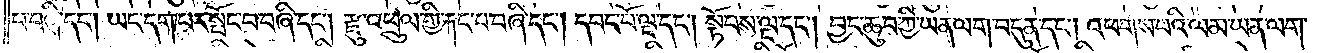པ་བཞི་དང༌། ཡང་དག་པར་སྤོང་བ་བཞི་དང༌། རྫུ་འཕྲུལ་གྱི་རྐང་པ་བཞི་དང༌། དབང་པོ་ལྔ་དང༌། སྟོབས་ལྔ་དང༌། བྱང་ཆུབ་ཀྱི་ཡན་ལག་བདུན་དང༌། འཕགས་པའི་ལམ་ཡན་ལག་
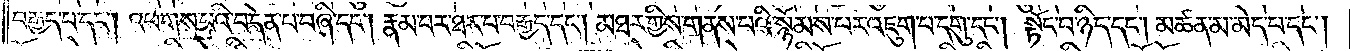བརྒྱད་པ་དང༌། འཕགས་པའི་བདེན་པ་བཞི་དང༌། རྣམ་པར་ཐར་པ་བརྒྱད་དང༌། མཐར་གྱིས་གནས་པའི་སྙོམས་པར་འཇུག་པ་དགུ་དང༌། སྟོང་པ་ཉིད་དང༌། མཚན་མ་མེད་པ་དང༌།
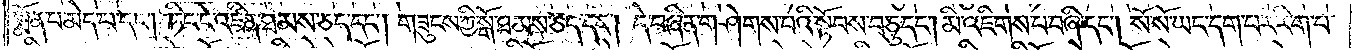སྨོན་པ་མེད་པ་དང༌། ཏིང་ངེ་འཛིན་ཐམས་ཅད་དང༌། གཟུངས་ཀྱི་སྒོ་ཐམས་ཅད་དང༌། དེ་བཞིན་གཤེགས་པའི་སྟོབས་བཅུ་དང༌། མི་འཇིགས་པ་བཞི་དང༌། སོ་སོ་ཡང་དག་པར་རིག་པ་
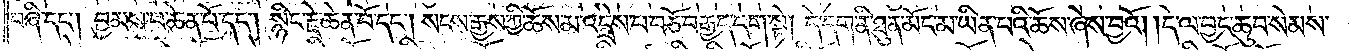བཞི་དང༌། བྱམས་པ་ཆེན་པོ་དང༌། སྙིང་རྗེ་ཆེན་པོ་དང༌། སངས་རྒྱས་ཀྱི་ཆོས་མ་འདྲེས་པ་བཅོ་བརྒྱད་དག་སྟེ། དེ་དག་ནི་ཐུན་མོང་མ་ཡིན་པའི་ཆོས་ཞེས་བྱའོ། །དེ་ལ་བྱང་ཆུབ་སེམས་
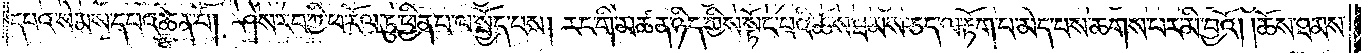དཔའ་སེམས་དཔའ་ཆེན་པོ། ཤེས་རབ་ཀྱི་ཕ་རོལ་ཏུ་ཕྱིན་པ་ལ་སྤྱོད་པས། རང་གི་མཚན་ཉིད་ཀྱིས་སྟོང་པའི་ཆོས་ཐམས་ཅད་ལ་རྟོག་པ་མེད་པས་ཆགས་པར་མི་བྱའོ། །ཆོས་ཐམས་
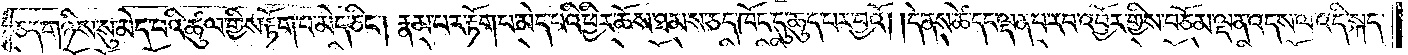ཅད་གཉིས་སུ་མེད་པའི་ཚུལ་གྱིས་རྟོག་པ་མེད་ཅིང༌། རྣམ་པར་རྟོག་པ་མེད་པའི་ཕྱིར་ཆོས་ཐམས་ཅད་ཁོང་དུ་ཆུད་པར་བྱའོ། །དེ་ནས་ཚེ་དང་ལྡན་པ་རབ་འབྱོར་གྱིས་བཅོམ་ལྡན་འདས་ལ་འདི་སྐད་
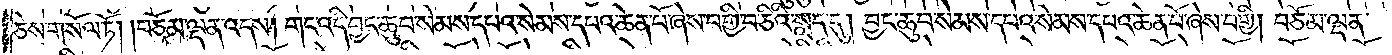ཅེས་གསོལ་ཏོ། །བཅོམ་ལྡན་འདས། གང་འདི་བྱང་ཆུབ་སེམས་དཔའ་སེམས་དཔའ་ཆེན་པོ་ཞེས་བགྱི་བ་ཅིའི་སླད་དུ། བྱང་ཆུབ་སེམས་དཔའ་སེམས་དཔའ་ཆེན་པོ་ཞེས་བགྱི། བཅོམ་ལྡན་
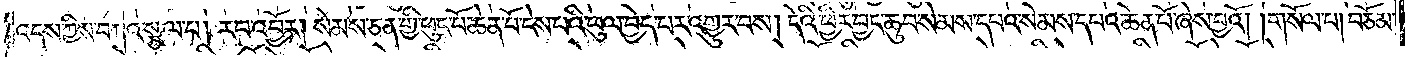འདས་ཀྱིས་བཀའ་སྩལ་པ། རབ་འབྱོར། སེམས་ཅན་གྱི་ཕུང་པོ་ཆེན་པོ་ངེས་པའི་ཕུལ་བྱེད་པར་འགྱུར་བས། དེའི་ཕྱིར་བྱང་ཆུབ་སེམས་དཔའ་སེམས་དཔའ་ཆེན་པོ་ཞེས་བྱའོ། །གསོལ་པ། བཅོམ་
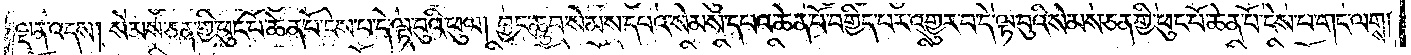ལྡན་འདས། སེམས་ཅན་གྱི་ཕུང་པོ་ཆེན་པོ་ངེས་པ་དེ་ལྟ་བུའི་ཕུལ། བྱང་ཆུབ་སེམས་དཔའ་སེམས་དཔའ་ཆེན་པོ་བགྱིད་པར་འགྱུར་བ་དེ་ལྟ་བུའི་སེམས་ཅན་གྱི་ཕུང་པོ་ཆེན་པོ་ངེས་པ་གང་ལགས།
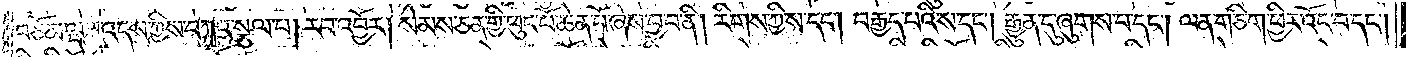བཅོམ་ལྡན་འདས་ཀྱིས་བཀའ་སྩལ་པ། རབ་འབྱོར། སེམས་ཅན་གྱི་ཕུང་པོ་ཆེན་པོ་ཞེས་བྱ་བ་ནི། རིགས་ཀྱི་ས་དང༌། བརྒྱད་པའི་ས་དང༌། རྒྱུན་དུ་ཞུགས་པ་དང༌། ལན་ཅིག་ཕྱིར་འོང་བ་དང༌།
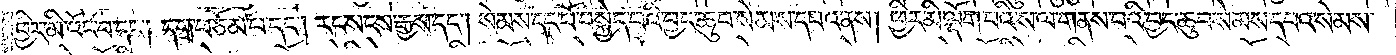ཕྱིར་མི་འོང་བ་དང༌། དགྲ་བཅོམ་པ་དང༌། རང་སངས་རྒྱས་དང༌། སེམས་དང་པོ་བསྐྱེད་པའི་བྱང་ཆུབ་སེམས་དཔའ་ནས། ཕྱིར་མི་ལྡོག་པའི་ས་ལ་གནས་པའི་བྱང་ཆུབ་སེམས་དཔའ་སེམས་
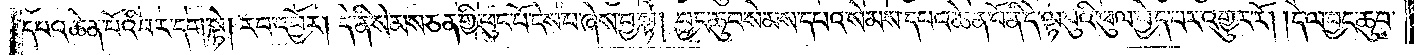དཔའ་ཆེན་པོའི་བར་དག་སྟེ། རབ་འབྱོར། དེ་ནི་སེམས་ཅན་གྱི་ཕུང་པོ་ངེས་པ་ཞེས་བྱ་སྟེ། བྱང་ཆུབ་སེམས་དཔའ་སེམས་དཔའ་ཆེན་པོ་ནི་དེ་ལྟ་བུའི་ཕུལ་བྱེད་པར་འགྱུར་རོ། །དེ་ལ་བྱང་ཆུབ་
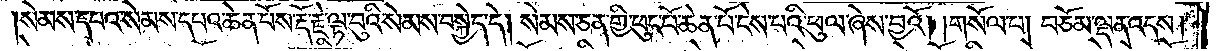སེམས་དཔའ་སེམས་དཔའ་ཆེན་པོས་རྡོ་རྗེ་ལྟ་བུའི་སེམས་བསྐྱེད་དེ། སེམས་ཅན་གྱི་ཕུང་པོ་ཆེན་པོ་ངེས་པའི་ཕུལ་ཞེས་བྱའོ། །གསོལ་པ། བཅོམ་ལྡན་འདས།
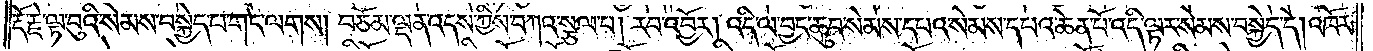རྡོ་རྗེ་ལྟ་བུའི་སེམས་བསྐྱེད་པ་གང་ལགས། བཅོམ་ལྡན་འདས་ཀྱིས་བཀའ་སྩལ་པ། རབ་འབྱོར། འདི་ལ་བྱང་ཆུབ་སེམས་དཔའ་སེམས་དཔའ་ཆེན་པོ་འདི་ལྟར་སེམས་བསྐྱེད་དེ། འཁོར་
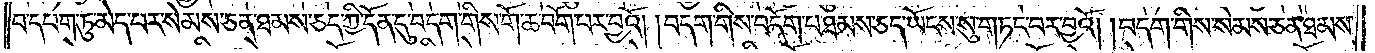བ་དཔག་ཏུ་མེད་པར་སེམས་ཅན་ཐམས་ཅད་ཀྱི་དོན་དུ་བདག་གིས་གོ་ཆ་བགོ་བར་བྱའོ། །བདག་གིས་བདོག་པ་ཐམས་ཅད་ཡོངས་སུ་གཏང་བར་བྱའོ། །བདག་གིས་སེམས་ཅན་ཐམས་
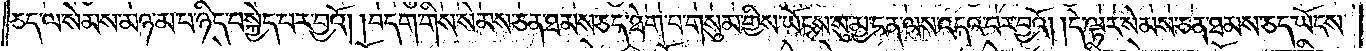ཅད་ལ་སེམས་མཉམ་པ་ཉིད་བསྐྱེད་པར་བྱའོ། །བདག་གིས་སེམས་ཅན་ཐམས་ཅད་ཐེག་པ་གསུམ་གྱིས་ཡོངས་སུ་མྱ་ངན་ལས་འདའ་བར་བྱའོ། །དེ་ལྟར་སེམས་ཅན་ཐམས་ཅད་ཡོངས་
